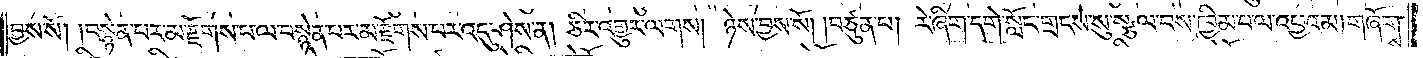བྱས་སོ། །བསྙེན་པར་མ་རྫོགས་པ་ལ་བསྙེན་པར་མ་རྫོགས་པར་འདུ་ཤེས་ན། ཅིར་འགྱུར་ལགས། ཉེས་བྱས་སོ། །བཙུན་པ། རེ་ཞིག་དགེ་སློང་གྲངས་སུ་སྩལ་བས་ཁྱིམ་པ་ལ་འཕྱའམ། གཞོགས་
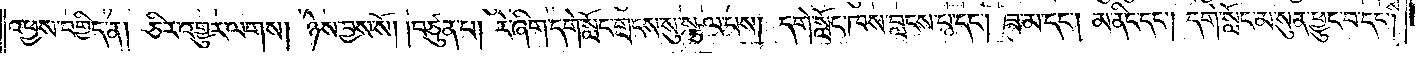འཕྱས་བགྱིད་ན། ཅིར་འགྱུར་ལགས། ཉེས་བྱས་སོ། །བཙུན་པ། རེ་ཞིག་དགེ་སློང་གྲངས་སུ་སྩལ་པས། དགེ་སློང་ཁས་བླངས་པ་དང༌། ཟ་མ་དང༌། མ་ནིང་དང༌། དགེ་སློང་མ་སུན་ཕྱུང་བ་དང༌།
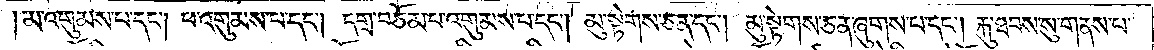མ་འགུམས་པ་དང༌། ཕ་འགུམས་པ་དང༌། དགྲ་བཅོམ་པ་འགུམས་པ་དང༌། མུ་སྟེགས་ཅན་དང༌། མུ་སྟེགས་ཅན་ཞུགས་པ་དང༌། རྐུ་ཐབས་སུ་གནས་པ་
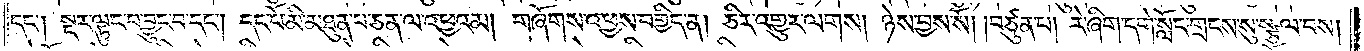དང༌། སྔར་ལྟུང་བ་བྱུང་བ་དང༌། དང་པོ་མི་མཐུན་པ་ཅན་ལ་འཕྱའམ། གཞོགས་འཕྱས་བགྱིད་ན། ཅིར་འགྱུར་ལགས། ཉེས་བྱས་སོ། །བཙུན་པ། རེ་ཞིག་དགེ་སློང་གྲངས་སུ་སྩལ་བས།
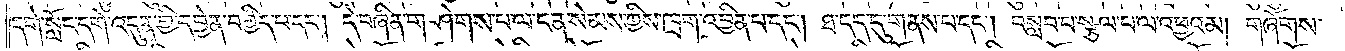དགེ་སློང་དགེ་འདུན་གྱི་དབྱེན་བགྱིད་པ་དང༌། དེ་བཞིན་གཤེགས་པ་ལ་ངན་སེམས་ཀྱིས་ཁྲག་འབྱིན་པ་དང༌། ཐ་དད་དུ་གནས་པ་དང༌། བསླབ་པ་སྩལ་པ་ལ་འཕྱའམ། གཞོགས་
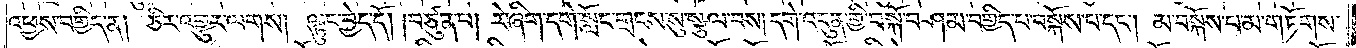འཕྱས་བགྱིད་ན། ཅིར་འགྱུར་ལགས། ལྟུང་བྱེད་དོ། །བཙུན་པ། རེ་ཞིག་དགེ་སློང་གྲངས་སུ་སྩལ་པས། དགེ་འདུན་གྱི་བསྐོ་བཤམ་བགྱིད་པ་བསྐོས་པ་དང༌། མ་བསྐོས་པ་མ་གཏོགས་
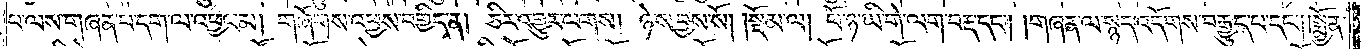པ་ལས་གཞན་པ་དག་ལ་འཕྱའམ། གཞོགས་འཕྱས་བགྱིད་ན། ཅིར་འགྱུར་ལགས། ཉེས་བྱས་སོ། །སྡོམ་ལ། ཕོ་ཉ་ཡི་གེ་ལག་བརྡ་དང༌། །གཞན་ལ་སྙད་འདོགས་བརྒྱུད་པ་དང༌། །སྨྱོན་
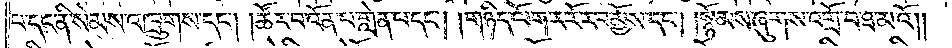པ་དང་ནི་སེམས་འཁྲུགས་དང༌། །ཚོར་བ་འོན་པ་གླེན་པ་དང༌། །གཉིད་ལོག་ར་རོ་རབ་མྱོས་དང༌། །སྙོམས་ཞུགས་འགྲོ་བ་ཐ་མའོ༎
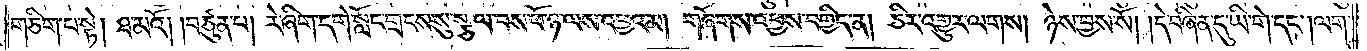གཅིག་པ་སྟེ། ཐ་མའོ། །བཙུན་པ། རེ་ཞིག་དགེ་སློང་གྲངས་སུ་སྩལ་བས་ཕོ་ཉ་ལས་འཕྱའམ། གཞོགས་འཕྱས་བགྱིད་ན། ཅིར་འགྱུར་ལགས། ཉེས་བྱས་སོ། །དེ་བཞིན་དུ་ཡི་གེ་དང༌། ལག་
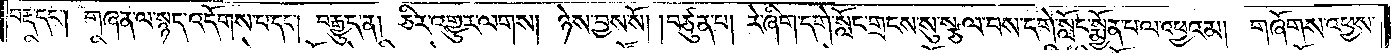བརྡ་དང༌། གཞན་ལ་སྙད་འདོགས་པ་དང༌།  བརྒྱུད་ན། ཅིར་འགྱུར་ལགས། ཉེས་བྱས་སོ། །བཙུན་པ། རེ་ཞིག་དགེ་སློང་གྲངས་སུ་སྩལ་བས་དགེ་སློང་སྨྱོན་པ་ལ་འཕྱའམ། གཞོགས་འཕྱས་
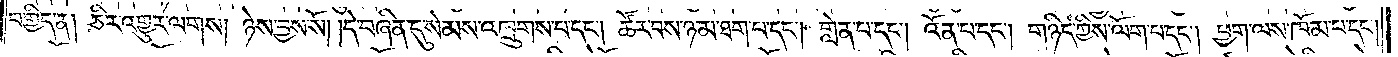བགྱིད་ན། ཅིར་འགྱུར་ལགས། ཉེས་བྱས་སོ། །དེ་བཞིན་དུ་སེམས་འཁྲུགས་པ་དང༌། ཚོར་བས་ཉམ་ཐག་པ་དང༌། གླེན་པ་དང༌། འོན་པ་དང༌། གཉིད་ཀྱིས་ལོག་པ་དང༌། ཕྱག་ལས་ཁོམ་པ་དང༌།
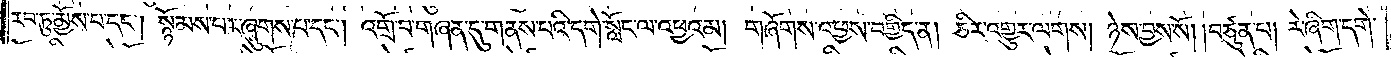རབ་ཏུ་མྱོས་པ་དང༌། སྙོམས་པར་ཞུགས་པ་དང༌། འགྲོ་བ་གཞན་དུ་གནས་པའི་དགེ་སློང་ལ་འཕྱའམ། གཞོགས་འཕྱས་བགྱིད་ན། ཅིར་འགྱུར་ལགས། ཉེས་བྱས་སོ། །བཙུན་པ། རེ་ཞིག་དགེ་
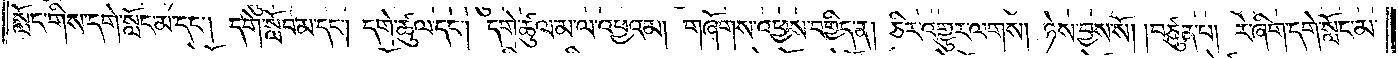སློང་གིས་དགེ་སློང་མ་དང༌། དགེ་སློབ་མ་དང༌། དགེ་ཚུལ་དང༌། དགེ་ཚུལ་མ་ལ་འཕྱའམ། གཞོགས་འཕྱས་བགྱིད་ན། ཅིར་འགྱུར་ལགས། ཉེས་བྱས་སོ། །བཙུན་པ། རེ་ཞིག་དགེ་སློང་མ་
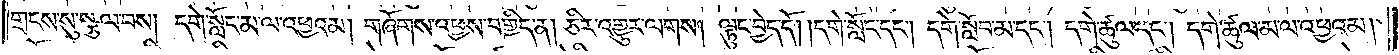གྲངས་སུ་སྩལ་བས། དགེ་སློང་མ་ལ་འཕྱའམ། གཞོགས་འཕྱས་བགྱིད་ན། ཅིར་འགྱུར་ལགས། ལྟུང་བྱེད་དོ། །དགེ་སློང་དང༌། དགེ་སློབ་མ་དང༌། དགེ་ཚུལ་དང༌། དགེ་ཚུལ་མ་ལ་འཕྱའམ།
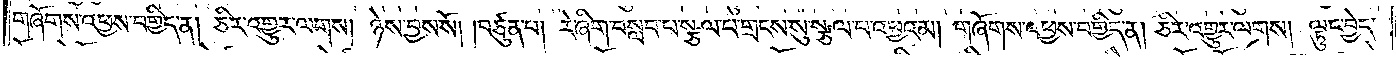གཞོགས་འཕྱས་བགྱིད་ན། ཅིར་འགྱུར་ལགས། ཉེས་བྱས་སོ། །བཙུན་པ། རེ་ཞིག་བསླབ་པ་སྩལ་པ་གྲངས་སུ་སྩལ་པ་འཕྱའམ། གཞོགས་འཕྱས་བགྱིད་ན། ཅིར་འགྱུར་ལགས། ལྟུང་བྱེད་
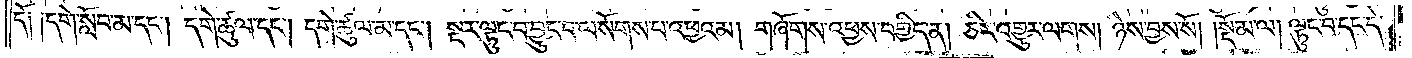དོ༑ ༑དགེ་སློང་མ་དང༌། དགེ་ཚུལ་དང༌། དགེ་ཚུལ་མ་དང༌། སྔར་ལྟུང་བ་བྱུང་བ་ལ་སོགས་པ་འཕྱའམ། གཞོགས་འཕྱས་བགྱིད་ན། ཅིར་འགྱུར་ལགས། ཉེས་བྱས་སོ།    །སྡོམ་ལ། ལྟུང་བ་དང་དེ་
